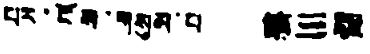པར་ངོས་གསུམ་པ་ 第三版
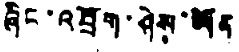ཞིང་འབྲོག་ཤེས་ཡོན
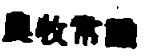農牧常識
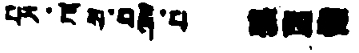པར་ངོས་བཞི་པ་ 第四版
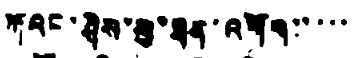ཀོའང་ཤིས་སུ་ཐན་འགོག་་་་་
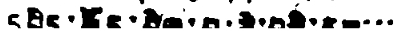དབྱིན་བོད་
